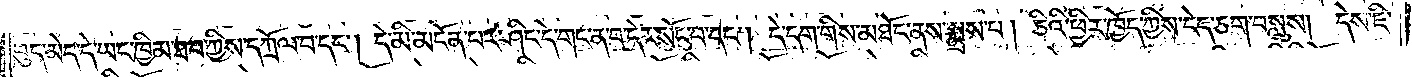བུད་མེད་དེ་ཡང་ཁྱིམ་ཐབ་ཀྱིས་དཀྲོལ་པ་དང༌། དེ་མི་མངོན་པར་ཤིང་དེ་གང་ན་བ་དེར་སོང་བ་དང༌། དེ་དག་གིས་མཐོང་ནས་སྨྲས་པ། ཅིའི་ཕྱིར་ཁྱོད་ཀྱིས་ངེད་ཅག་བསླུས། དེས་ཇི་
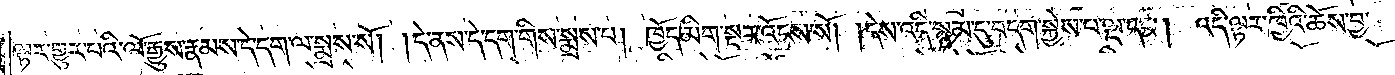ལྟར་གྱུར་པའི་ལོ་རྒྱུས་རྣམས་དེ་དག་ལ་སྨྲས་སོ། །དེ་ནས་དེ་དག་གིས་སྨྲས་པ། ཁྱོད་མིག་སྔར་འོངས་སོ། །དེས་འདི་སྙམ་དུ་བདག་སྐྱེས་པ་ལྔ་དང༌། འདི་ལྟར་ཁྱིའི་ཆོས་བྱ་
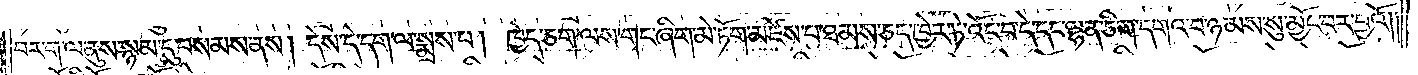བར་ག་ལ་ནུས་སྙམ་དུ་བསམས་ནས། དེས་དེ་དག་ལ་སྨྲས་པ། ཁྱེད་ཅག་ལས་གང་ཞིག་མེ་ཏོག་མཛེས་པ་ཐམས་ཅད་ཁྱེར་ཏེ་འོང་བ་དེ་དང་ལྷན་ཅིག་དགའ་བ་ཉམས་སུ་མྱོང་བར་བྱའོ༎
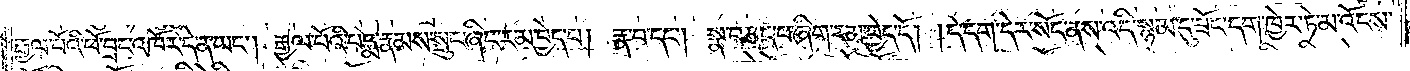རྒྱལ་པོའི་ཕོ་བྲང་འཁོར་དེ་ན་ཡང༌། རྒྱལ་པོའི་པདྨ་རྣམས་སྲུང་ཞིང་རམ་བྱེད་པ། རྣ་བ་དང༌། སྣ་བཅད་པ་ཞིག་རམ་བྱེད་དོ། །དེ་དག་དེར་སོང་ནས་འདི་སྙམ་དུ་ཟོང་དག་ཁྱེར་ཏེ་མ་འོངས་
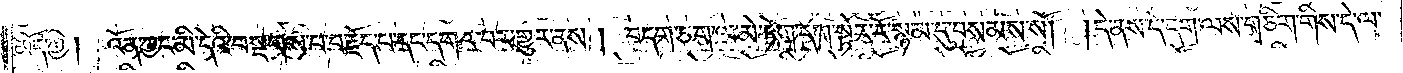མོད་ཀྱི། འོན་ཀྱང་མི་དེའི་བསྔགས་པ་བརྗོད་པ་དང་དགའ་བར་གྱུར་ནས། བདག་ཅག་ལ་མེ་ཏོག་དག་སྟེར་རོ་སྙམ་དུ་བསམས་སོ། །དེ་ནས་དེ་དག་ལས་གཅིག་གིས་དེ་ལ་
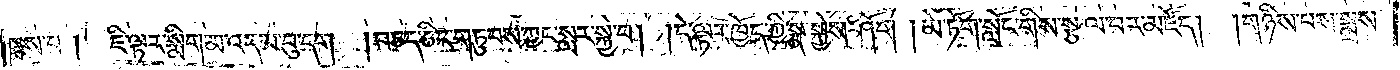སྨྲས་པ། ཇི་ལྟར་སྨིག་མ་འདམ་བུ་དག །བཅད་ཅིང་གཏུབས་ཀྱང་སླར་སྐྱེ་བ། །དེ་ལྟར་ཁྱོད་ཀྱི་སྣ་སྐྱེས་ཤོག །མེ་ཏོག་སློང་གིས་སྩལ་བར་མཛོད། །གཉིས་པས་སྨྲས་
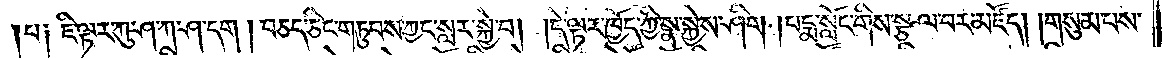པ། ཇི་ལྟར་ཀུ་ཤ་ཀ་ཤ་དག །བཅད་ཅིང་གཏུབས་ཀྱང་སླར་སྐྱེ་བ། །དེ་ལྟར་ཁྱོད་ཀྱི་སྣ་སྐྱེས་ཤིག །པདྨ་སློང་གིས་སྩལ་བར་མཛོད། །གསུམ་པས་
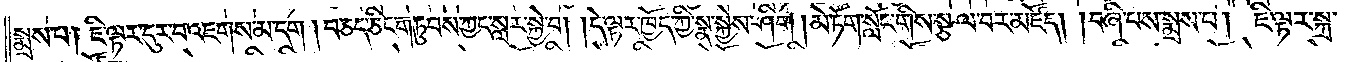སྨྲས་པ། ཇི་ལྟར་དུར་བ་འཇགས་མ་དག །བཅད་ཅིང་གཏུབས་ཀྱང་སླར་སྐྱེ་བ། །དེ་ལྟར་ཁྱོད་ཀྱི་སྣ་སྐྱེས་ཤིག །མེ་ཏོག་སློང་གིས་སྩལ་བར་མཛོད། །བཞི་པས་སྨྲས་པ། ཇི་ལྟར་སྐྲ་
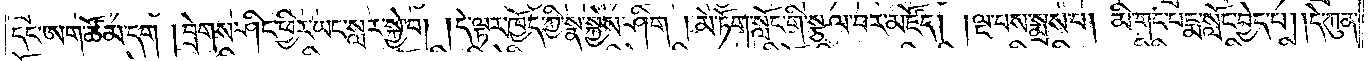དང་ཨག་ཚོམ་དག །བྲེགས་ཤིང་ཕྱིར་ཡང་སླར་སྐྱེ་བ། །དེ་ལྟར་ཁྱོད་ཀྱི་སྣ་སྐྱེས་ཤིག །མེ་ཏོག་སློང་གི་སྩལ་བར་མཛོད། །ལྔ་པས་སྨྲས་པ། མི་གང་པདྨ་སློང་བྱེད་པ། །དེ་ཀུན་
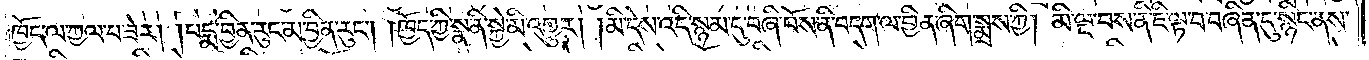ཁྱོད་ལ་ཀྱལ་པ་ཟེར། །པདྨ་བྱིན་རུང་མ་བྱིན་རུང༌། །ཁྱོད་ཀྱི་སྣ་ནི་སྐྱེ་མི་འགྱུར། །མི་དེས་འདི་སྙམ་དུ་བཞི་པོས་ནི་བདག་ལ་བྱིན་ཞིག་སྨྲས་ཀྱི། མི་ལྔ་པས་ནི་ཇི་ལྟ་བ་བཞིན་དུ་སྙིང་ནས་
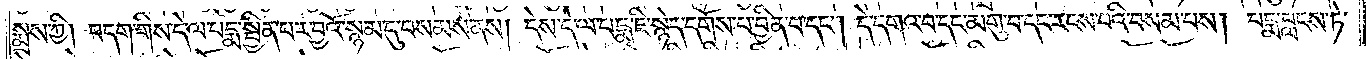སྨྲས་ཀྱི། བདག་གིས་དེ་ལ་པདྨ་སྦྱིན་པར་བྱའོ་སྙམ་དུ་བསམས་ནས། དེས་དེ་ལ་པདྨ་ཇི་སྙེད་དགོས་པ་བྱིན་པ་དང༌། དེ་དགའ་བ་དང་མགུ་བ་དང་རངས་པའི་བསམ་པས། པདྨ་བླངས་ཏེ་
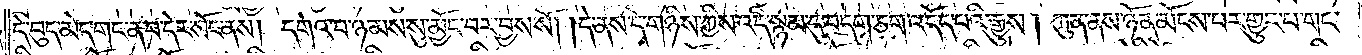དེ་བུད་མེད་གང་ན་བ་དེར་སོང་ནས། དགའ་བ་ཉམས་སུ་མྱོང་བར་བྱས་སོ། །དེ་ནས་དེ་གཉིས་ཀྱིས་འདི་སྙམ་དུ་བདག་ཅག་འདོད་པའི་རྒྱུས། ཀུན་ནས་ཉོན་མོངས་པར་གྱུར་པ་གང་
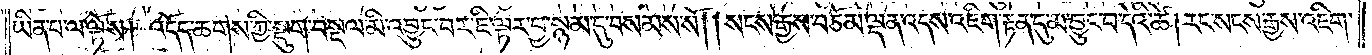ཡིན་པ་ལ་ལྟོས། འདོད་ཆགས་ཀྱི་སྡུག་བསྔལ་མི་འབྱུང་བར་ཇི་ལྟར་བྱ་སྙམ་དུ་བསམས་སོ། །སངས་རྒྱས་བཅོམ་ལྡན་འདས་འཇིག་རྟེན་དུ་མ་བྱུང་བ་དེའི་ཚེ། རང་སངས་རྒྱས་འཇིག་
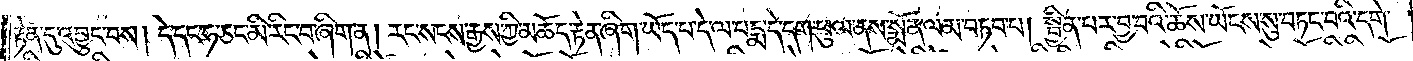རྟེན་དུ་འབྱུང་བས། དེ་དང་ཧ་ཅང་མི་རིང་བ་ཞིག་ན། རང་སངས་རྒྱས་ཀྱི་མཆོད་རྟེན་ཞིག་ཡོད་པ་དེ་ལ་པདྨ་དེ་དག་ཕུལ་ནས་སྨོན་ལམ་བཏབ་པ། སྦྱིན་པར་བྱ་བའི་ཆོས་ཡོངས་སུ་བཏང་བའི་དགེ་
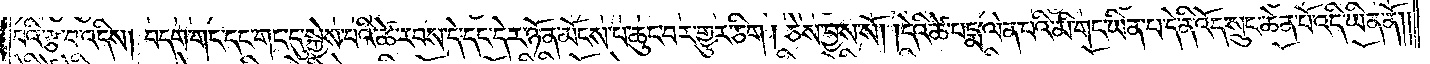བའི་རྩ་བ་འདིས། བདག་གང་དང་གང་དུ་སྐྱེས་པའི་ཚེ་རབས་དེ་དང་དེར་ཉོན་མོངས་པ་ཆུང་བར་གྱུར་ཅིག །ཅེས་བྱས་སོ། །དེའི་ཚེ་པདྨ་ལེན་པའི་མི་གང་ཡིན་པ་དེ་ནི་འོད་སྲུང་ཆེན་པོ་འདི་ཡིན་ནོ༎
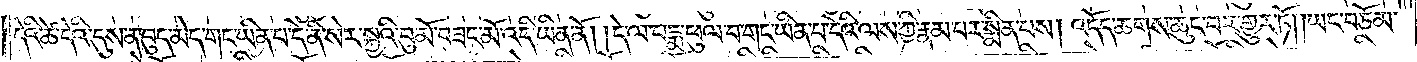དེའི་ཚེ་དེའི་དུས་ན་བུད་མེད་གང་ཡིན་པ་དེ་ནི་སེར་སྐྱའི་བུ་མོ་བཟང་མོ་འདི་ཡིན་ནོ། །དེ་ལ་པདྨ་ཕུལ་བ་གང་ཡིན་པ་དེའི་ལས་ཀྱི་རྣམ་པར་སྨིན་པས། འདོད་ཆགས་ཆུང་བར་གྱུར་ཏོ། །ཡང་བཅོམ་
